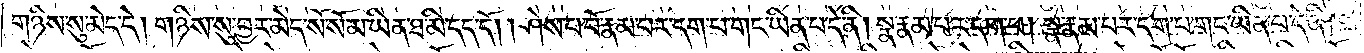གཉིས་སུ་མེད་དེ། གཉིས་སུ་བྱར་མེད་སོ་སོ་མ་ཡིན་ཐ་མི་དད་དོ། །ཤེས་པ་པོ་རྣམ་པར་དག་པ་གང་ཡིན་པ་དེ་ནི། སྣ་རྣམ་པར་དག་པ། སྣ་རྣམ་པར་དག་པ་གང་ཡིན་པ་དེ་ནི།
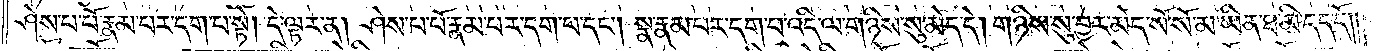ཤེས་པ་པོ་རྣམ་པར་དག་པ་སྟེ། དེ་ལྟར་ན། ཤེས་པ་པོ་རྣམ་པར་དག་པ་དང༌། སྣ་རྣམ་པར་དག་པ་འདི་ལ་གཉིས་སུ་མེད་དེ། གཉིས་སུ་བྱར་མེད་སོ་སོ་མ་ཡིན་ཐ་མི་དད་དོ། །
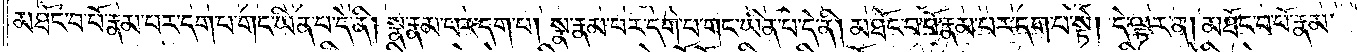མཐོང་བ་པོ་རྣམ་པར་དག་པ་གང་ཡིན་པ་དེ་ནི། སྣ་རྣམ་པར་དག་པ། སྣ་རྣམ་པར་དག་པ་གང་ཡིན་པ་དེ་ནི། མཐོང་བ་པོ་རྣམ་པར་དག་པ་སྟེ། དེ་ལྟར་ན། མཐོང་བ་པོ་རྣམ་
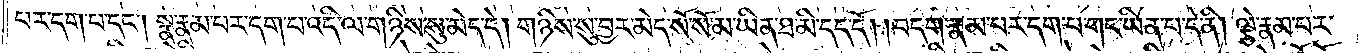པར་དག་པ་དང༌། སྣ་རྣམ་པར་དག་པ་འདི་ལ་གཉིས་སུ་མེད་དེ། གཉིས་སུ་བྱར་མེད་སོ་སོ་མ་ཡིན་ཐ་མི་དད་དོ། །བདག་རྣམ་པར་དག་པ་གང་ཡིན་པ་དེ་ནི། ལྕེ་རྣམ་པར་
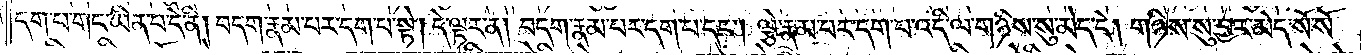དག་པ་གང་ཡིན་པ་དེ་ནི། བདག་རྣམ་པར་དག་པ་སྟེ། དེ་ལྟར་ན། བདག་རྣམ་པར་དག་པ་དང༌། ལྕེ་རྣམ་པར་དག་པ་འདི་ལ་གཉིས་སུ་མེད་དེ། གཉིས་སུ་བྱར་མེད་སོ་སོ་
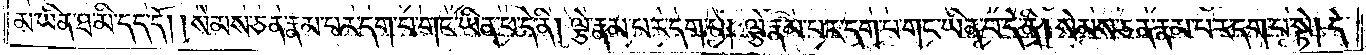མ་ཡིན་ཐ་མི་དད་དོ། །སེམས་ཅན་རྣམ་པར་དག་པ་གང་ཡིན་པ་དེ་ནི། ལྕེ་རྣམ་པར་དག་པ། ལྕེ་རྣམ་པར་དག་པ་གང་ཡིན་པ་དེ་ནི། སེམས་ཅན་རྣམ་པར་དག་པ་སྟེ། དེ་
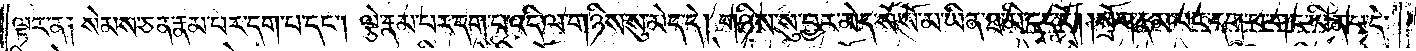ལྟར་ན༑ སེམས་ཅན་རྣམ་པར་དག་པ་དང༌། ལྕེ་རྣམ་པར་དག་པ་འདི་ལ་གཉིས་སུ་མེད་དེ། གཉིས་སུ་བྱར་མེད་སོ་སོ་མ་ཡིན་ཐ་མི་དད་དོ། །སྲོག་རྣམ་པར་དག་པ་གང་ཡིན་པ་དེ་
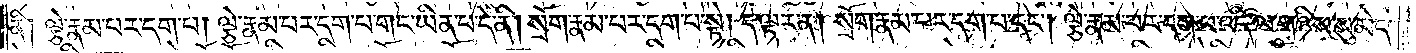ནི༑ ལྕེ་རྣམ་པར་དག་པ། ལྕེ་རྣམ་པར་དག་པ་གང་ཡིན་པ་དེ་ནི། སྲོག་རྣམ་པར་དག་པ་སྟེ། དེ་ལྟར་ན། སྲོག་རྣམ་པར་དག་པ་དང༌། ལྕེ་རྣམ་པར་དག་པ་འདི་ལ་གཉིས་སུ་མེད་
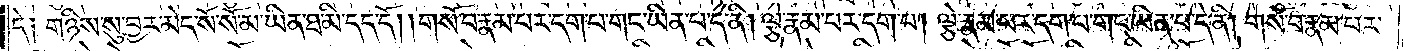དེ༑ གཉིས་སུ་བྱར་མེད་སོ་སོ་མ་ཡིན་ཐ་མི་དད་དོ། །གསོ་བ་རྣམ་པར་དག་པ་གང་ཡིན་པ་དེ་ནི། ལྕེ་རྣམ་པར་དག་པ། ལྕེ་རྣམ་པར་དག་པ་གང་ཡིན་པ་དེ་ནི། གསོ་བ་རྣམ་པར་
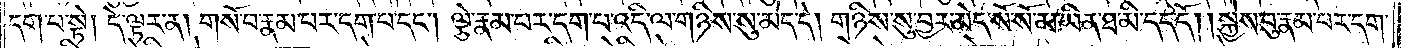དག་པ་སྟེ། དེ་ལྟར་ན། གསོ་བ་རྣམ་པར་དག་པ་དང༌། ལྕེ་རྣམ་པར་དག་པ་འདི་ལ་གཉིས་སུ་མེད་དེ། གཉིས་སུ་བྱར་མེད་སོ་སོ་མ་ཡིན་ཐ་མི་དད་དོ། །སྐྱེས་བུ་རྣམ་པར་དག་
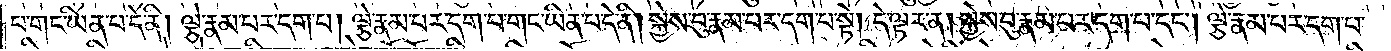པ་གང་ཡིན་པ་དེ་ནི། ལྕེ་རྣམ་པར་དག་པ། ལྕེ་རྣམ་པར་དག་པ་གང་ཡིན་པ་དེ་ནི། སྐྱེས་བུ་རྣམ་པར་དག་པ་སྟེ། དེ་ལྟར་ན། སྐྱེས་བུ་རྣམ་པར་དག་པ་དང༌། ལྕེ་རྣམ་པར་དག་པ་
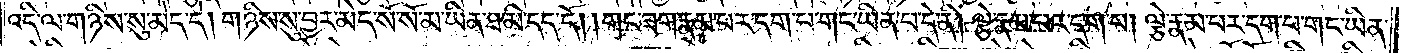འདི་ལ་གཉིས་སུ་མེད་དེ། གཉིས་སུ་བྱར་མེད་སོ་སོ་མ་ཡིན་ཐ་མི་དད་དོ། །གང་ཟག་རྣམ་པར་དག་པ་གང་ཡིན་པ་དེ་ནི། ལྕེ་རྣམ་པར་དག་པ། ལྕེ་རྣམ་པར་དག་པ་གང་ཡིན་
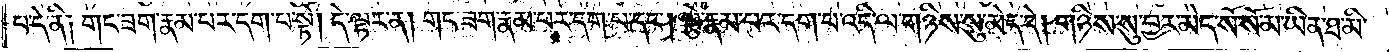པ་དེ་ནི༑ གང་ཟག་རྣམ་པར་དག་པ་སྟེ། དེ་ལྟར་ན། གང་ཟག་རྣམ་པར་དག་པ་དང༌། ལྕེ་རྣམ་པར་དག་པ་འདི་ལ་གཉིས་སུ་མེད་དེ། གཉིས་སུ་བྱར་མེད་སོ་སོ་མ་ཡིན་ཐ་མི་
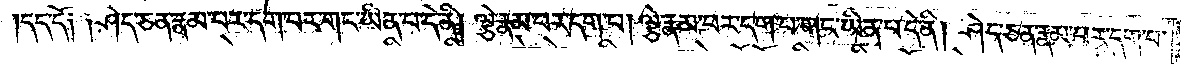དད་དོ༑ ༑ཤེད་ཅན་རྣམ་པར་དག་པ་གང་ཡིན་པ་དེ་ནི། ལྕེ་རྣམ་པར་དག་པ། ལྕེ་རྣམ་པར་དག་པ་གང་ཡིན་པ་དེ་ནི། ཤེད་ཅན་རྣམ་པར་དག་པ་
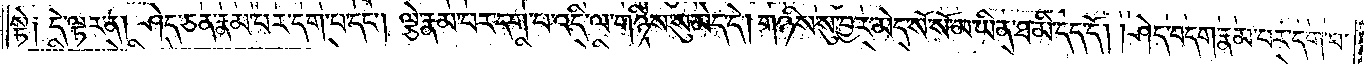སྟེ༑ དེ་ལྟར་ན། ཤེད་ཅན་རྣམ་པར་དག་པ་དང༌། ལྕེ་རྣམ་པར་དག་པ་འདི་ལ་གཉིས་སུ་མེད་དེ། གཉིས་སུ་བྱར་མེད་སོ་སོ་མ་ཡིན་ཐ་མི་དད་དོ། །ཤེད་བདག་རྣམ་པར་དག་པ་
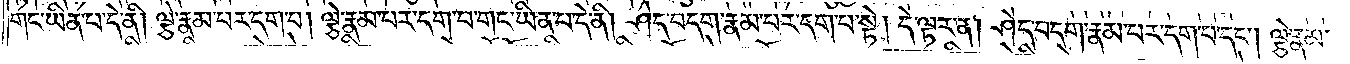གང་ཡིན་པ་དེ་ནི། ལྕེ་རྣམ་པར་དག་པ། ལྕེ་རྣམ་པར་དག་པ་གང་ཡིན་པ་དེ་ནི། ཤེད་བདག་རྣམ་པར་དག་པ་སྟེ། དེ་ལྟར་ན། ཤེད་བདག་རྣམ་པར་དག་པ་དང༌། ལྕེ་རྣམ་
